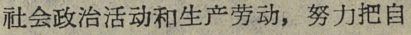社会政治活动和生产劳动，努力把自
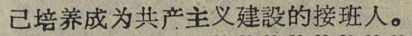己培养成为共产主义建設的接班人。
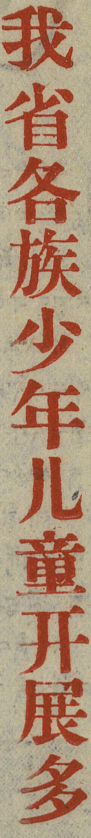我省各族少年儿童开展多
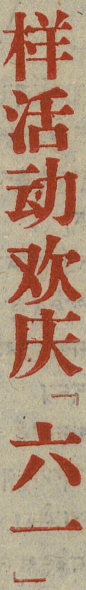样活动欢庆「六一」
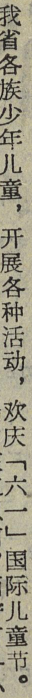我省各族少年儿童，开展各种活动，欢庆「六一」国际儿童节。
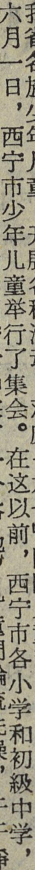六月一日，西宁市少年儿童举行了集会。在这以前，西宁市各小学和初级中学，
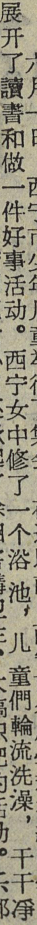展开了讀書和做一件好事活动。西宁女中修了一个浴池，儿童們輪流洗澡，干干淨
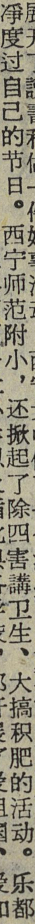淨度过自己的节日。西宁师范附小，还掀起了除四害講卫生、大搞积肥的活动。乐都
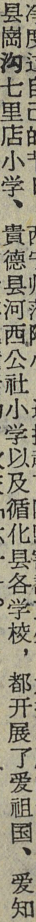县崗沟七里店小学、貴德县河西公社小学以及循化县各学校，都开展了爱祖国、爱知
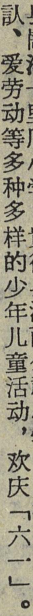认、爱劳动等多种多样的少年儿童活动，欢庆「六一」。
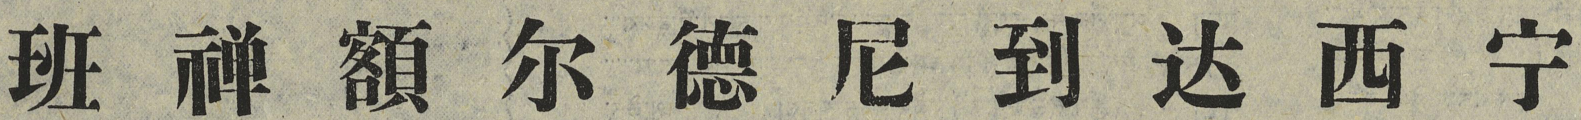班 禪 額 尔 德 尼 到 达 西 宁
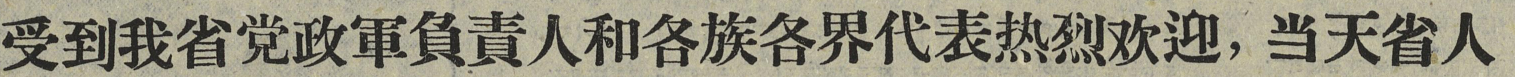受到我省党政軍負責人和各族各界代表热烈迎，当天省人
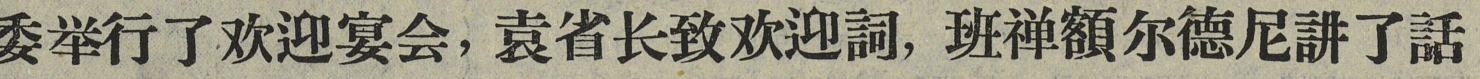委举行了欢迎宴会，袁省长致欢迎詞，班禪額尔德尼講了話
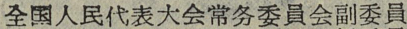全国人民代表大会常务委員会副委員
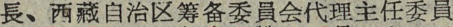長、西藏自治区等备委員会代理主任委員
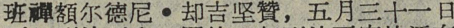班禪額尔德尼・却吉坚贊，五月三十一日
